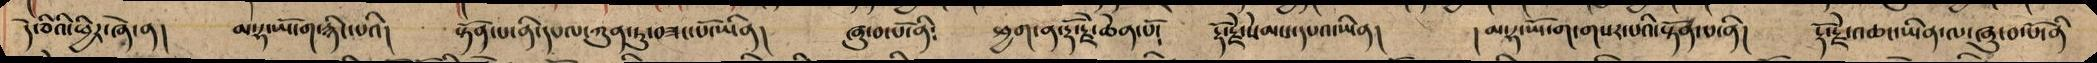དེ་ཅིའི་ཕྱིར་ཞེ་ན། མ་ཧ་ཡོ་ག་རྙིང་པའི། སྟོན་པ་ནི་དཔལ་ཀུན་ཏུ་བཟང་པོ་ཡིན། ཞུ་བ་པོ་ནི༴ ཕྱག་ན་རྡོ་རྗེ་ཆེན་པོ། རྡོ་རྗེ་སེམས་དོའ་ཡིན། །མ་ཧ་ཡོ་ག་གསར་པའི་སྟོན་པ་ནི། རྡོ་རྗེ་འཆང་ཡིན་ལ་ཞུ་བ་པོ་ནི
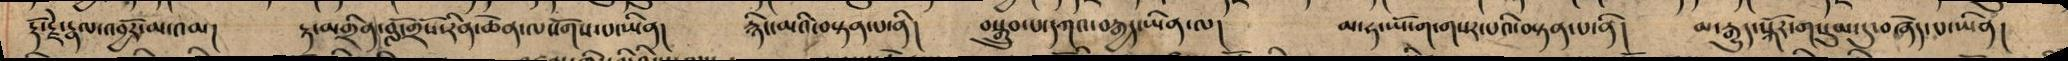རྡོ་རྗེ་རྣལ་འབྱོར་མ་འམ། རྟ་མགྲིན་བློ་གྲོས་རིན་ཆེན་ལསོགས་པ་ཡིན། རྙིང་མའི་བསྟན་པ་ནི། བསྒྲུབ་པ་དཀའ་བརྒྱད་ཡིན་ལ། མ་ཧ་ཡོ་ག་གསར་པའི་བསྟན་པ་ནི། མ་རྒྱུད་སྐོར་གསུམ་དུ་བཞེད་པ་ཡིན།
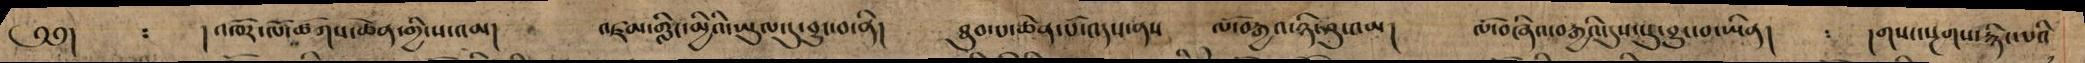༄༅། །འཁོར་ལོ་ཚོགས་ཆེན་གྱི་ས་འམ། འཛམ་གླིང་མྱིའི་ཡུལ་དུ་བྱུང་བ་ནི། ཐུབ་པ་ཆེན་པོ་འདས་ནས། ལོ་བརྒྱའ་ཉི་ཤུ་འམ། ལོ་བཞིའ་བརྒྱའི་དུས་སུ་བྱུང་བ་ཡིན། །གསང་སྔགས་རྙིང་པའི
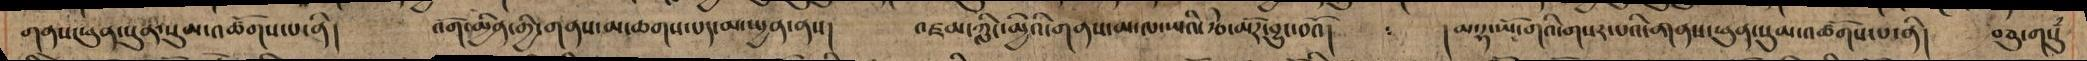གནས་ཕུན་སུམ་འཚོགས་པ་ནི། འོག་མྱིན་གྱི་གནས་མ་ཆགས་པད་མ་ཆགས་པད་མ་སྤྱན་ནས། འཛམ་ཀླིང་མྱིའི་གནས་མ་ལ་ཡའི་རྩེ་མོར་བྱུང་བའོ། །མ་ཧ་ཡོ་གའི་གསར་པའི་གནས་ཕུན་སུམ་འཚོགས་པ་ནི། །མ་ཧ་ཡོ་གའི་གསར་པའི་གནས་ཕུན་སུམ་འཚོགས་པ་ནི། བཅུ་གསུ
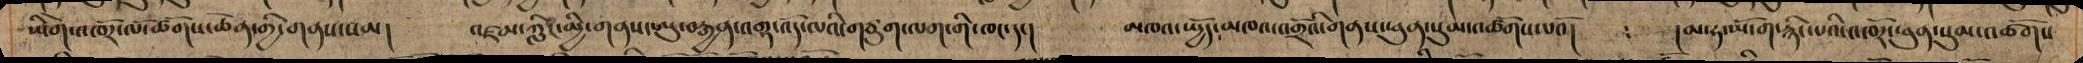ཡེགེ་འཁོར་ལོ་ཚོགས་ཆེན་གྱི་གནས་སམ། འཛམ་ཀླིང་མྱི་གནས་ཨུ་བརྒྱན་འགྷ་འོད་ལའི་གཙུག་ལག་གི་ཁང་དང། མཁའ་སྤྱོད་མཁའ་འགྲོའི་གནས་ཕུན་སུམ་འཚོགས་པའོ། །མ་ཧ་ཡོ་ག་རྙིང་པའི་འཁོར་ཕུན་སུམ་འཚོགས
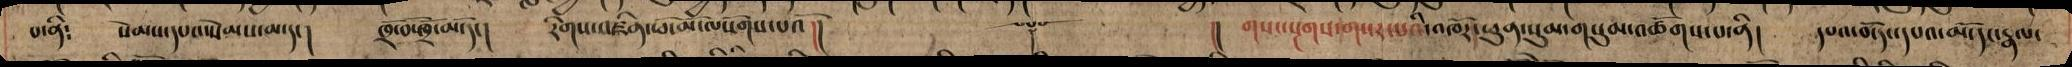པ་ནི༴ སེམས་དཔའ་སེམས་མ་དང། ཁྲོ་བོ་ཁྲོ་མོ་དང། རིགས་འཛིན་ཕོ་མོ་ལསོགས་པའོ།། ། །། གསང་སྔགས་གསར་པའི་འཁོར་ཕུན་གསུམ་འཚོགས་པ་ནི། དཔའ་བོ་དང་དཔའ་མོ་དང་རྣལ་
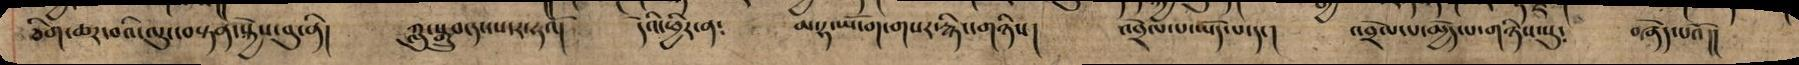ཅིག་ཆར་བའི་ལུང་བསྟན་སྐྱེས་བུ་ནི། ཀླུ་སྒྲུབ་དང་ས་ར་ཧའོ། དེའི་ཕྱིར་ན༴ མ་ཧ་ཡོ་ག་གསར་རྙིང་གཉིས། འབྲེལ་པ་ཡོད་པ་དང། འབྲེལ་པ་མྱེད་པ་གཉིས་སུ༴ བཞེད་པའོ།།
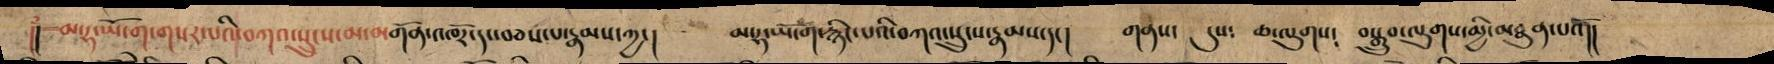།། མ་ཧ་ཡོ་ག་གསར་པའི་བཀའ་སྲུངས་མ་མགོན་འཁོར་དང་བཅས་པ་རྣམས་ཀྱང། མ་ཧ་ཡོ་ག་རྙིང་པའི་བཀའ་སྲུངས་རྣམས་དང། གནས་ དུས༴ ཆ་ལུགས༴ བསྒྲུབ་ལུགས་མྱི་མཐུན་ོཔའོ།།
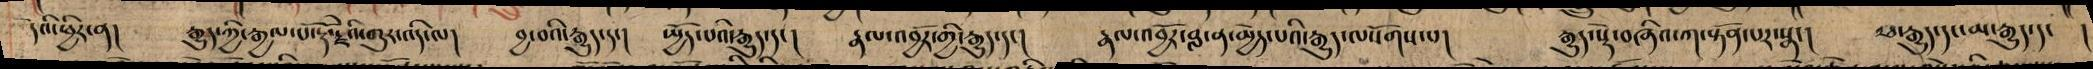དེའི་ཕྱིར་ན། རྒྱུད་ཀྱི་རྒྱལ་པོ་རྡོ་རྗེའི་གུར་འདི་ལ། བྱ་བ་རྒྱུད་དང། སྤྱོད་པའི་རྒྱུད་དང། རྣལ་འབྱོར་གྱི་རྒྱུད་དང། རྣལ་འབྱོར་བླ་ན་མྱེད་པའི་རྒྱུད་ལསོགས་པ། རྒྱུད་སྡེ་བཞིའ་ཀ་སྟོན་པར་སྣང། ཕ་རྒྱུད་དང་མ་རྒྱུད་དང །
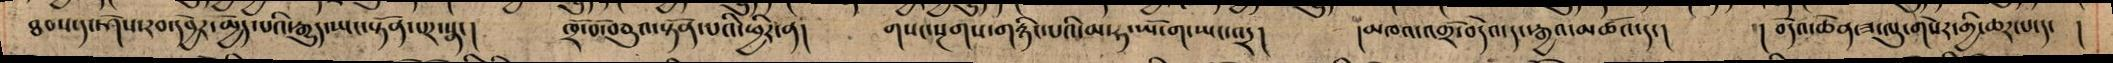ཐབས་དང་ཤེས་རབ་དབྱེར་མྱེད་པའི་རྒྱུད་ཡང་སྟོན་པར་སྣང། ཁྲོ་བོ་བཅུའ་སྟོན་པའི་ཕྱིར་ན། གསང་སྔགས་གརྙིང་པའི་མ་ཧ་ཡོ་ག་ཡང་འདྲ། །མཁའ་འྒརོ་བདེའ་དང་རྒྱའ་མཚོའ་དང། །བདེའ་ཆེན་ཟ་ལུ་གསེར་གྱི་ཆར་པ་དང །
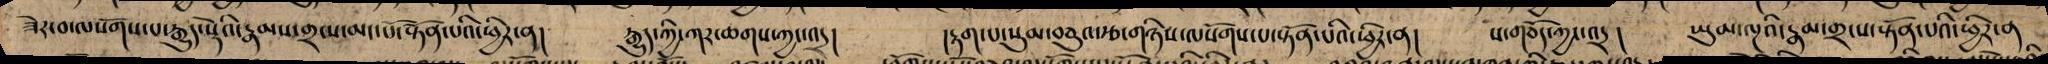ཟེར་བ་ལསོགས་པ་རྒྱུད་སྡེའི་རྣམས་གྲངས་མང་པོ་སྟོན་པའི་ཕྱིར་ན། རྒྱུད་ཀྱི་ཀར་ཆགས་ཀྱང་འདྲ། །རྟག་པ་སུམ་བཅུའ་རྩ་གཉིས་ལསོགས་པ་སྟོན་པའི་ཕྱིར་ན། ས་གཅོད་ཀྱང་འདྲ། ཡུམ་ལྔའི་རྣམ་གྲངས་སྟོན་པའི་ཕྱིར་ན
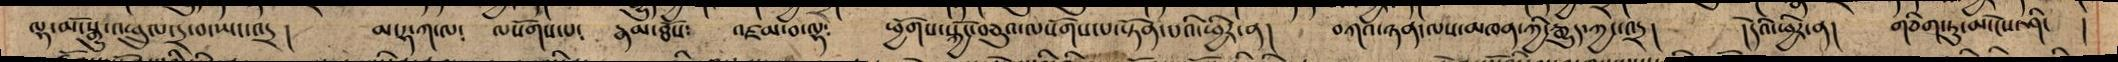ལྷ་མོ་སྒྱུ་འཕྲུལ་དྲ་བ་ཡང་འདྲ། མ་ཧ་ཀ་ལ༴ ལསོགས་པ༴ རྣམ་ཐོས༴ འཛམ་བ་ལྷ༴ ཕྱོགས་སྐྱོང་བཅུའ་ལསོགས་པ་སྟོན་པའི་ཕྱིར་ན། བཀའ་ཉན་ལས་མཁན་ཀྱི་རྒྱུད་ཀྱང་འདྲ། །དེའི་ཕྱིར་ན། གཅིག་ཏུ་མ་ངེས་ཤིང །
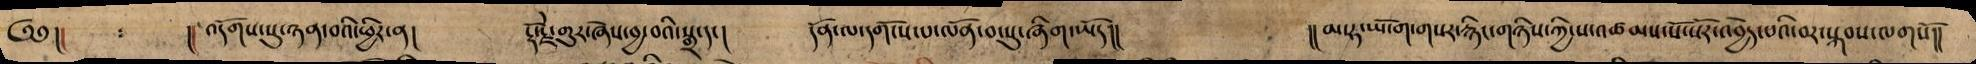༄༅།། །།འདོགས་སུ་ཉན་བའི་ཕྱིར་ན། རྡོ་རྗེ་གུར་ཞེས་བྱ་བའི་སྒྲ་དང། དོན་ལ་དགོངས་པ་ལོན་བ་སུ་ཞིག་ཡོད།། །།མ་ཧ་ཡོ་ག་གསར་རྙིང་གཉིས་ཀྱི་ས་འཚམས་སོ་སོར་འབྱེད་པའི་བར་སྐབས་ལགསོ།།
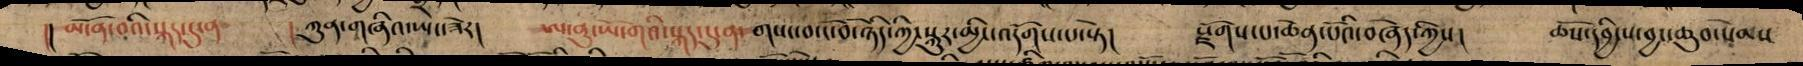།།མངོན་བའི་སྐད་དུ་ན །ཀུན་གཞིའ་ཡང་ཟེར། ཨ་ནུ་ཡོ་གའི་སྐད་དུ་ན་གསང་བ་ངོ་བོ་ཉིད་ཀྱི་སྐུར་མྱི་འདོགས་པ་སྟེ།  སྫོགས་པ་ཆེན་པོའི་བཞེད་ཀྱིས། ཆོས་དབྱིངས་བྱང་ཆུབ་སེམས
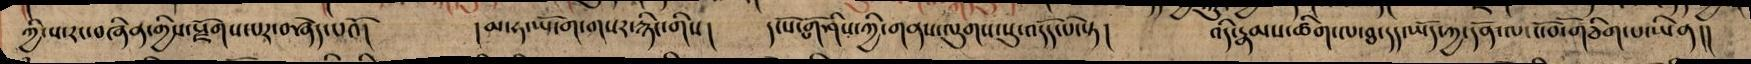ཀྱི་ས་རང་བཞིན་གྱིས་སྫོགས་པར་བཞེད་པའོ། །མ་ཧ་ཡོ་ག་གསར་རྙིང་གིས། དངོས་གཤིས་ཀྱི་གནས་ལུགས་སུ་འདོད་པ་སྟེ། འདི་རྣམས་ཚིག་ལ་ཐ་དད་ཡོད་ཀྱ་དོན་ལ་ངོ་བོ་གཅིག་པ་ཡིན།།
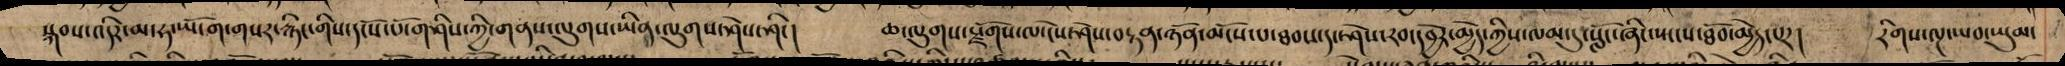སྐབས་འདིར་མ་ཧ་ཡོ་ག་གསར་རྙིང་གིས་དངོས་པོ་གཤིས་ཀྱི་གནས་ལུགས་ཤེས་ཤིང། ཆ་ལུགས་སྫོགས་ལ་ངེས་ཤེས་བརྟན་ཉོན་མོངས་པ་ཐབས་དང་ཤེས་རབ་དབྱེར་མྱེད་ཀྱིས་ལམ་དུ་སློང་ཞིང་སྤངས་ཐོབ་མྱེད་པར། རིགས་ལྔ་ཡབ་ཡུམ་
